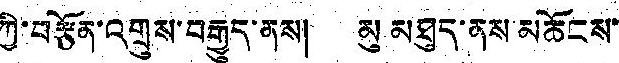ཀྱི་བརྩོན་འགྲུས་བརྒྱུད་ནས། མུ མཐུད་ནས་མཆོངས་
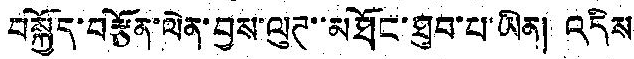བསྐྱོད་བརྩོན་ལེན་བྱས་ལུཊ་་མཐོང་ཐུབ་པ་ཡིན། འདིས
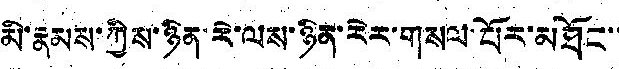མི་རྣམས་ཀྱིས་ཉིན་རེ་ལས་ཉིན་རེར་གསལ་པོར་མཐོང་་
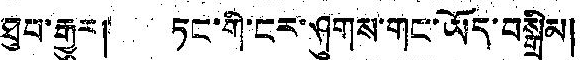ཐུབ་རྒྱུར། ཏང་གི་ངར་ཤུགས་གང་ཡོད་བསྒྲིམ།
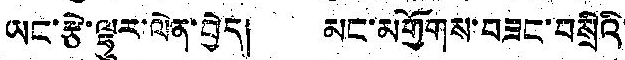ཡང་རྩེ་ལྷུར་ལེན་བྱེད། མང་མགྱོགས་བཟང་བསྲིའི་
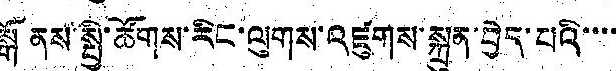སྒོ ནས་སྤྱི་ཚོགས་རིང་ལུགས་འཛུགས་སྐྲུན་བྱེད་པའི་་་་
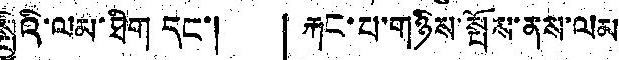སྤྱིའི་ལམ་ཐིག དང་། 「རྐང་པ་གཉིས་སྤོས་ནས་ལམ
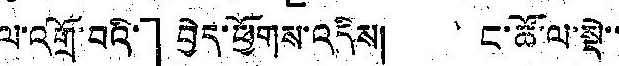ལ་འགྲོ་བའི་」བྱེད་ཕྱོགས་འདིས། ང་ཚོ་ལ་སྡེ་་
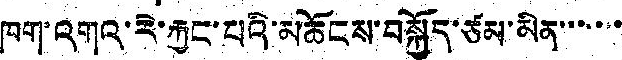ཁག་འགའ་རེ་རྐྱང་པའི་མཆོངས་བསྐྱོད་ཙམ་མིན་་་་་་་
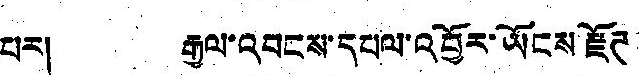པར། རྒྱལ་འབངས་དཔལ་འབྱོར་ཡོངས་རྫོཊ
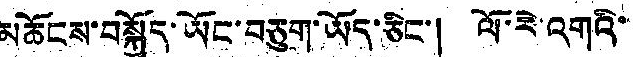མཆོངས་བསྐྱོད་ཡོང་བཅུག་ཡོད་ཅིང་། ལོ་རེ་འགའི་
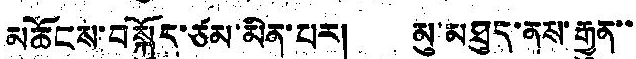མཆོངས་བསྐྱོད་ཙམ་མིན་པར། མུ་མཐུད་ནས་རྒྱུན་་
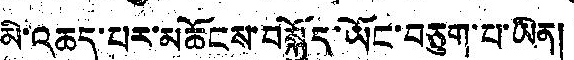མི་འཆད་པར་མཆོངས་བསྐྱོད་ཡོང་བཅུག་པ་ཡིན།
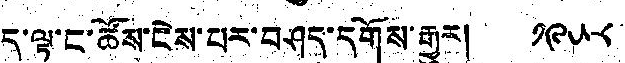ད་ལྟ་ང་ཚོས་ངེས་པར་བཤད་དགོས་རྒྱུར། ༡༩༥༨
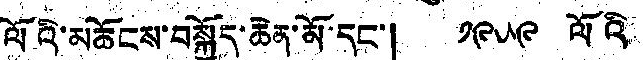ལོའི་མཆོངས་བསྐྱོད་ཆེན་མོ་དང་། ༡༩༥༩ ལོའི་
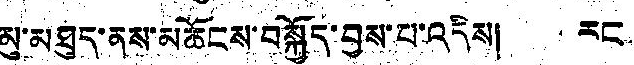མུ་མཐུད་ནས་མཆོངས་བསྐྱོད་བྱས་པ་འདིས། རང་
